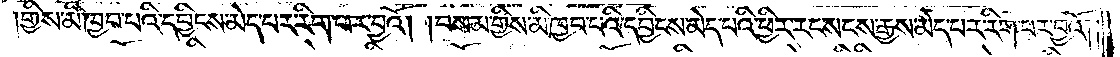གྱིས་མི་ཁྱབ་པའི་དབྱིངས་མེད་པར་རིག་པར་བྱའོ། །བསམ་གྱིས་མི་ཁྱབ་པའི་དབྱིངས་མེད་པའི་ཕྱིར་རང་སངས་རྒྱས་མེད་པར་རིག་པར་བྱའོ། །
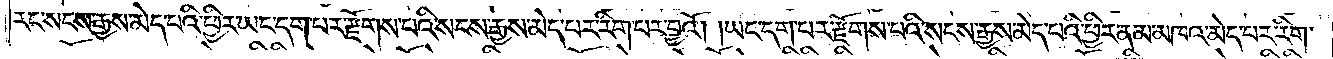རང་སངས་རྒྱས་མེད་པའི་ཕྱིར་ཡང་དག་པར་རྫོགས་པའི་སངས་རྒྱས་མེད་པར་རིག་པར་བྱའོ། །ཡང་དག་པར་རྫོགས་པའི་སངས་རྒྱས་མེད་པའི་ཕྱིར་ནམ་མཁའ་མེད་པར་རིག་
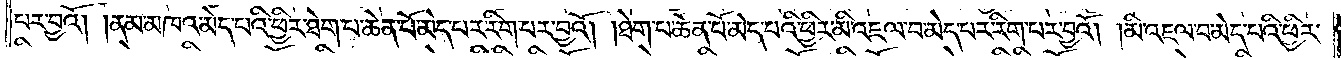པར་བྱའོ། །ནམ་མཁའ་མེད་པའི་ཕྱིར་ཐེག་པ་ཆེན་པོ་མེད་པར་རིག་པར་བྱའོ། །ཐེག་པ་ཆེན་པོ་མེད་པའི་ཕྱིར་མི་འཇལ་བ་མེད་པར་རིག་པར་བྱའོ། །མི་འཇལ་བ་མེད་པའི་ཕྱིར་
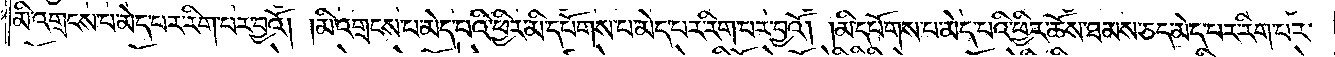མི་འགྲངས་པ་མེད་པར་རིག་པར་བྱའོ། །མི་འགྲངས་པ་མེད་པའི་ཕྱིར་མི་དཔོགས་པ་མེད་པར་རིག་པར་བྱའོ། །མི་དཔོགས་པ་མེད་པའི་ཕྱིར་ཆོས་ཐམས་ཅད་མེད་པར་རིག་པར་
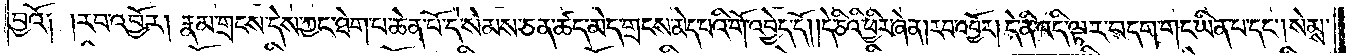བྱའོ། །རབ་འབྱོར། རྣམ་གྲངས་དེས་ཀྱང་ཐེག་པ་ཆེན་པོ་དེ་སེམས་ཅན་ཚད་མེད་གྲངས་མེད་པའི་གོ་འབྱེད་དོ། །དེ་ཅིའི་ཕྱིར་ཞེ་ན། རབ་འབྱོར། དེ་ནི་འདི་ལྟར་བདག་གང་ཡིན་པ་དང༌། སེམས་
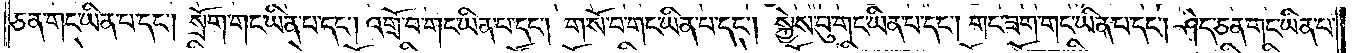ཅན་གང་ཡིན་པ་དང༌། སྲོག་གང་ཡིན་པ་དང༌། འགྲོ་བ་གང་ཡིན་པ་དང༌། གསོ་བ་གང་ཡིན་པ་དང༌། སྐྱེས་བུ་གང་ཡིན་པ་དང༌། གང་ཟག་གང་ཡིན་པ་དང༌། ཤེད་ཅན་གང་ཡིན་པ་
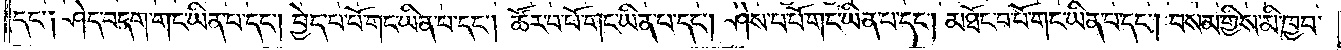དང༌། ཤེད་བདག་གང་ཡིན་པ་དང༌། བྱེད་པ་པོ་གང་ཡིན་པ་དང༌། ཚོར་བ་པོ་གང་ཡིན་པ་དང༌། ཤེས་པ་པོ་གང་ཡིན་པ་དང༌། མཐོང་བ་པོ་གང་ཡིན་པ་དང༌། བསམ་གྱིས་མི་ཁྱབ་
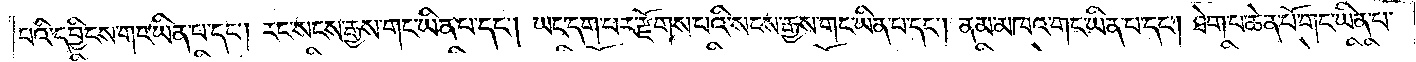པའི་དབྱིངས་གང་ཡིན་པ་དང༌། རང་སངས་རྒྱས་གང་ཡིན་པ་དང༌། ཡང་དག་པར་རྫོགས་པའི་སངས་རྒྱས་གང་ཡིན་པ་དང༌། ནམ་མཁའ་གང་ཡིན་པ་དང༌། ཐེག་པ་ཆེན་པོ་གང་ཡིན་པ་
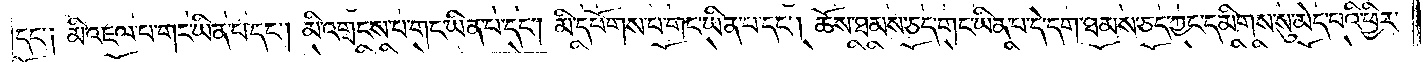དང༌། མི་འཇལ་བ་གང་ཡིན་པ་དང༌། མི་འགྲངས་པ་གང་ཡིན་པ་དང༌། མི་དཔོགས་པ་གང་ཡིན་པ་དང༌། ཆོས་ཐམས་ཅད་གང་ཡིན་པ་དེ་དག་ཐམས་ཅད་ཀྱང་དམིགས་སུ་མེད་པའི་ཕྱིར་
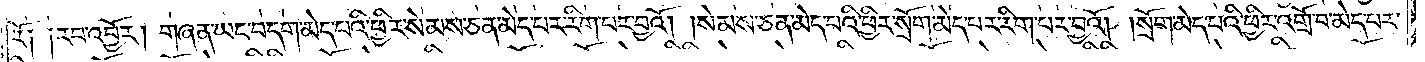རོ། །རབ་འབྱོར། གཞན་ཡང་བདག་མེད་པའི་ཕྱིར་སེམས་ཅན་མེད་པར་རིག་པར་བྱའོ། །སེམས་ཅན་མེད་པའི་ཕྱིར་སྲོག་མེད་པར་རིག་པར་བྱའོ། །སྲོག་མེད་པའི་ཕྱིར་འགྲོ་བ་མེད་པར་
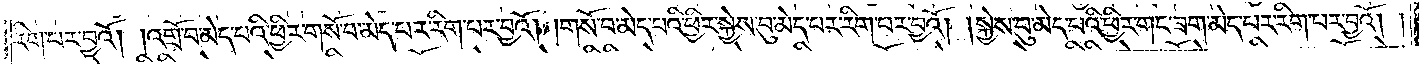རིག་པར་བྱའོ། །འགྲོ་བ་མེད་པའི་ཕྱིར་གསོ་བ་མེད་པར་རིག་པར་བྱའོ། །གསོ་བ་མེད་པའི་ཕྱིར་སྐྱེས་བུ་མེད་པར་རིག་པར་བྱའོ། །སྐྱེས་བུ་མེད་པའི་ཕྱིར་གང་ཟག་མེད་པར་རིག་པར་བྱའོ། །
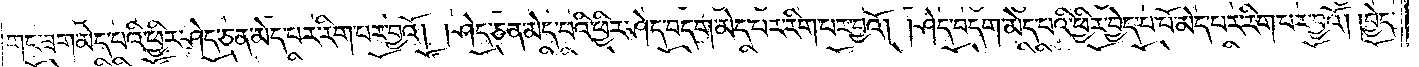གང་ཟག་མེད་པའི་ཕྱིར་ཤེད་ཅན་མེད་པར་རིག་པར་བྱའོ། །ཤད་ཅན་མེད་པའི་ཕྱིར་ཤེད་བདག་མེད་པར་རིག་པར་བྱའོ། །ཤེད་བདག་མེད་པའི་ཕྱིར་བྱེད་པ་པོ་མེད་པར་རིག་པར་བྱའོ། །བྱེད་
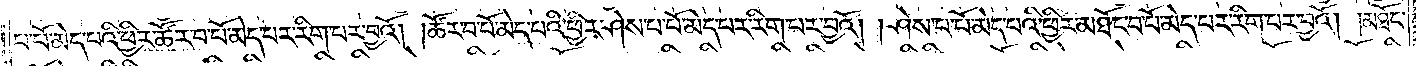པ་པོ་མེད་པའི་ཕྱིར་ཚོར་བ་པོ་མེད་པར་རིག་པར་བྱའོ། །ཚོར་བ་པོ་མེད་པའི་ཕྱིར་ཤེས་པ་པོ་མེད་པར་རིག་པར་བྱའོ། །ཤེས་པ་པོ་མེད་པའི་ཕྱིར་མཐོང་བ་པོ་མེད་པར་རིག་པར་བྱའོ། །མཐོང་
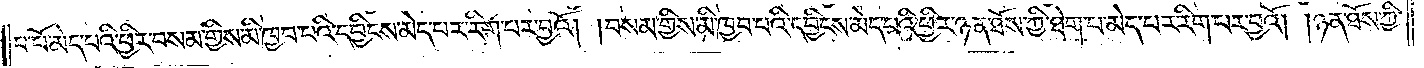བ་པོ་མེད་པའི་ཕྱིར་བསམ་གྱིས་མི་ཁྱབ་པའི་དབྱིངས་མེད་པར་རིག་པར་བྱའོ། །བསམ་གྱིས་མི་ཁྱབ་པའི་དབྱིངས་མེད་པའི་ཕྱིར་ཉན་ཐོས་ཀྱི་ཐེག་པ་མེད་པར་རིག་པར་བྱའོ། །ཉན་ཐོས་ཀྱི་
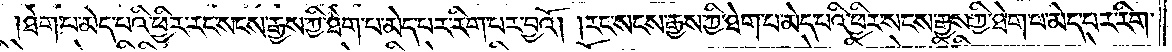ཐེག་པ་མེད་པའི་ཕྱིར་རང་སངས་རྒྱས་ཀྱི་ཐེག་པ་མེད་པར་རིག་པར་བྱའོ། །རང་སངས་རྒྱས་ཀྱི་ཐེག་པ་མེད་པའི་ཕྱིར་སངས་རྒྱས་ཀྱི་ཐེག་པ་མེད་པར་རིག་
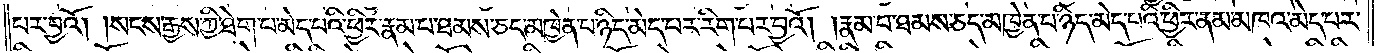པར་བྱའོ། །སངས་རྒྱས་ཀྱི་ཐེག་པ་མེད་པའི་ཕྱིར་རྣམ་པ་ཐམས་ཅད་མཁྱེན་པ་ཉིད་མེད་པར་རིག་པར་བྱའོ། །རྣམ་པ་ཐམས་ཅད་མཁྱེན་པ་ཉིད་མེད་པའི་ཕྱིར་ནམ་མཁའ་མེད་པར་
